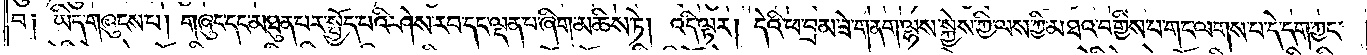བ༑ ཡིད་གཞུངས་པ། གཞུང་དང་མཐུན་པར་སྤྱོད་པའི་ཤེས་རབ་དང་ལྡན་པ་ཞིག་མཆིས་ཏེ། འདི་ལྟར། དེའི་ཕ་བྲམ་ཟེ་གནག་ལྷས་སྐྱེས་ཀྱི་ལས་ཀྱི་མཐའ་བགྱིས་པ་གང་ལགས་པ་དེ་དག་ཀྱང་
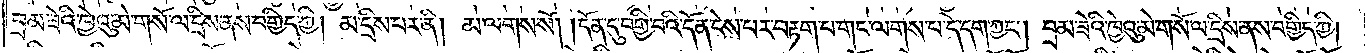བྲམ་ཟེའི་ཁྱེའུ་མེ་གསོ་ལ་དྲིས་ནས་བགྱིད་ཀྱི། མ་དྲིས་པར་ནི། མ་ལགས་སོ། །དོན་དུ་བགྱི་བའི་དོན་ངེས་པར་བརྟག་པ་གང་ལགས་པ་དེ་དག་ཀྱང༌། བྲམ་ཟེའི་ཁྱེའུ་མེ་གསོ་ལ་དྲིས་ནས་བགྱིད་ཀྱི།
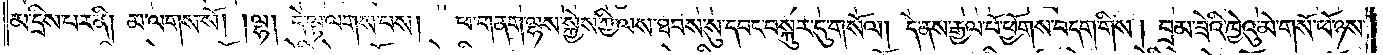མ་དྲིས་པར་ནི། མ་ལགས་སོ། །ལྷ། དེ་ལྟ་ལགས་པས།   ཕ་གནག་ལྷས་སྐྱེས་ཀྱི་ལས་ཐབས་སུ་དབང་བསྐུར་དུ་གསོལ། དེ་ནས་རྒྱལ་པོ་ཕྱོགས་བདག་གིས། བྲམ་ཟེའི་ཁྱེའུ་མེ་གསོ་ཕོ་ཉས་
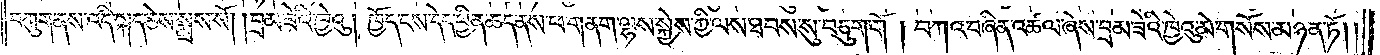བཀུག་ནས་འདི་སྐད་ཅེས་སྨྲས་སོ། །བྲམ་ཟེའི་ཁྱེའུ། ཁྱོད་ངས་དེད་ཕྱིན་ཆད་ནས་ཕ་གནག་ལྷས་སྐྱེས་ཀྱི་ལས་ཐབས་སུ་བཅུག་གོ །བཀའ་བཞིན་འཚལ་ཞེས་བྲམ་ཟེའི་ཁྱེའུ་མེ་གསོས་མཉན་ཏོ༎
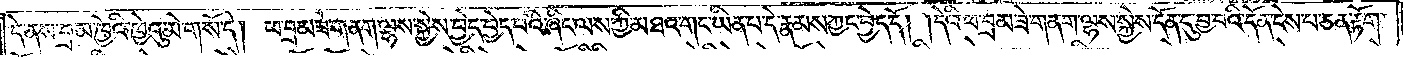དེ་ནས་བྲམ་ཁྱེའུ་ཁྱེའུ་མེ་གསོ་དེ། ཕ་བྲམ་ཟེ་གནག་ལྷས་སྐྱེས་བྱེད་བྱེད་པའི་ཞིང་ལས་ཀྱི་མཐའ་གང་ཡིན་པ་དེ་རྣམས་ཀྱང་བྱེད་དོ། །དེའི་ཕ་བྲམ་ཟེ་གནག་ལྷས་སྐྱེས་དོན་དུ་བྱ་བའི་དོན་ངེས་པ་ཅན་རྟོག་
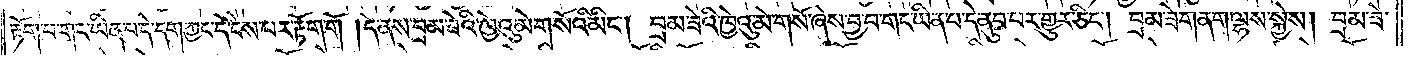རྟོག་པ་གང་ཡིན་པ་དེ་དག་ཀྱང་དེ་ངེས་པར་རྟོག་གོ །དེ་ནས་བྲམ་ཟེའི་ཁྱེའུ་མེ་གསོའི་མིང༌། བྲམ་ཟེའི་ཁྱེའུ་མེ་གསོ་ཞེས་བྱ་བ་གང་ཡིན་པ་དེ་ནུབ་པར་གྱུར་ཅིང༌། བྲམ་ཟེ་གནག་ལྷས་སྐྱེས། བྲམ་ཟེ་
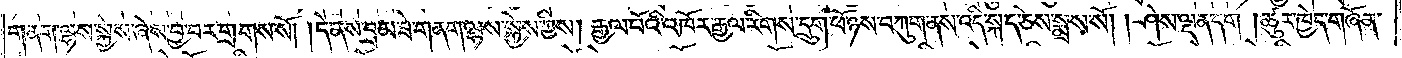གནག་ལྷས་སྐྱེས་ཞེས་བྱ་བར་གྲགས་སོ། །དེ་ནས་བྲམ་ཟེ་གནག་ལྷས་སྐྱེས་ཀྱིས། རྒྱལ་པོའི་འཁོར་རྒྱལ་རིགས་དྲུག་ཕོ་ཉས་བཀུག་ནས་འདི་སྐད་ཅེས་སྨྲས་སོ། །ཤེས་ལྡན་དག །ཚུར་ཁྱེད་གཞོན་
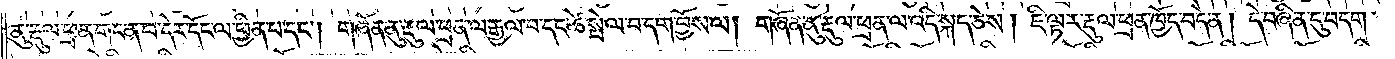ནུ་རྡུལ་ཕྲན་གང་ན་བ་དེར་དོང་ལ་ཕྱིན་པ་དང༌། གཞོན་ནུ་རྡུལ་ཕྲན་ལ་རྒྱལ་བ་དང་ཚེ་སྤེལ་བ་དག་བྱོས་ལ། གཞོན་ནུ་རྡུལ་ཕྲན་ལ་འདི་སྐད་ཅེས། ཇི་ལྟར་རྡུལ་ཕྲན་ཁྱོད་བདེ་ན། དེ་བཞིན་དུ་བདག་
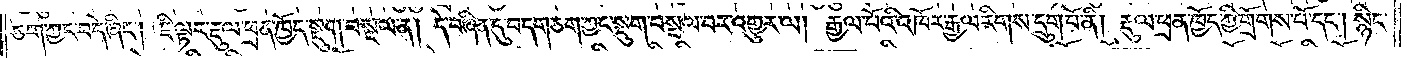ཅག་ཀྱང་བདེ་ཞིང༌། ཇི་ལྟར་རྡུལ་ཕྲན་ཁྱོད་སྡུག་བསྔལ་ན། དེ་བཞིན་དུ་བདག་ཅག་ཀྱང་སྡུག་བསྔལ་བར་འགྱུར་ལ། རྒྱལ་པོའི་འཁོར་རྒྱལ་རིགས་དྲུག་པོ་ནི། རྡུལ་ཕྲན་ཁྱོད་ཀྱི་གྲོགས་པོ་དང༌། སྙིང་
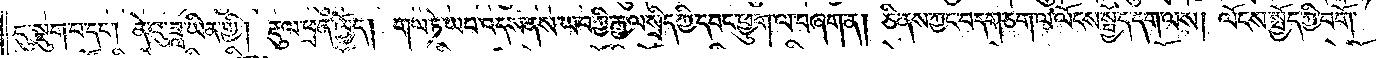དུ་སྡུག་པ་དང༌། ནེའུ་ཟླ་ཡིན་གྱི། རྡུལ་ཕྲན་ཁྱོད། གལ་ཏེ་ཡབ་འདས་ནས་ཡབ་ཀྱི་རྒྱལ་སྲིད་ཀྱི་དབང་ཕྱུག་ལ་བཞག་ན། ཅི་ནས་ཀྱང་བདག་ཅག་ལ་ལོངས་སྤྱོད་དག་ལས། ལོངས་སྤྱོད་ཀྱི་བགོ་
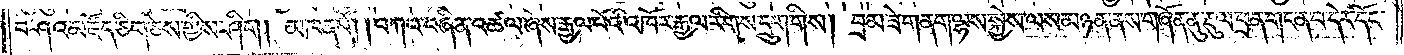བཤའ་མཛོད་ཅིག་ཅེས་གྱིས་ཤིག། མཁན་པོ་།བཀའ་བཞིན་འཚལ་ཞེས་རྒྱལ་པོའི་འཁོར་རྒྱལ་རིགས་དྲུག་གིས། བྲམ་ཟེ་གནག་ལྷས་སྐྱེས་ལས་མཉན་ནས་གཞོན་ནུ་རྡུལ་ཕྲན་གང་ན་བ་དེར་དོང་
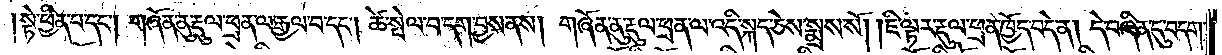སྟེ་ཕྱིན་པ་དང༌། གཞོན་ནུ་རྡུལ་ཕྲན་ལ་རྒྱལ་བ་དང༌། ཚེ་སྤེལ་བ་དག་བྱས་ནས། གཞོན་ནུ་རྡུལ་ཕྲན་ལ་འདི་སྐད་ཅེས་སྨྲས་སོ། །ཇི་ལྟར་རྡུལ་ཕྲན་ཁྱོད་བདེ་ན། དེ་བཞིན་དུ་བདག་
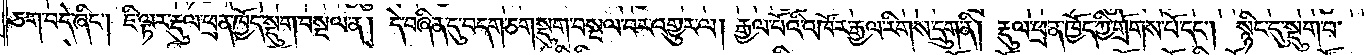ཅག་བདེ་ཞིང༌། ཇི་ལྟར་རྡུལ་ཕྲན་ཁྱོད་སྡུག་བསྔལ་ན། དེ་བཞིན་དུ་བདག་ཅག་སྡུག་བསྔལ་བར་འགྱུར་ལ། རྒྱལ་པོའི་འཁོར་རྒྱལ་རིགས་དྲུག་ནི། རྡུལ་ཕྲན་ཁྱོད་ཀྱི་གྲོགས་པོ་དང༌། སྙིང་དུ་སྡུག་པ་
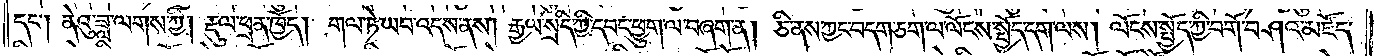དང༌། ནེའུ་ཟླ་ལགས་ཀྱི། རྡུལ་ཕྲན་ཁྱོད། གལ་ཏེ་ཡབ་འདས་ནས། རྒྱལ་སྲིད་ཀྱི་དབང་ཕྱུག་ལ་བཞག་ན། ཅི་ནས་ཀྱང་བདག་ཅག་ལ་ལོངས་སྤྱོད་དག་ལས། ལོངས་སྤྱོད་ཀྱི་བགོ་བཤའ་མཛོད་
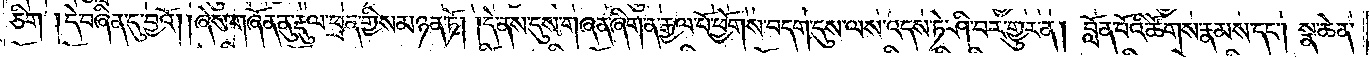ཅིག །དེ་བཞིན་དུ་བྱའོ། །ཞེས་གཞོན་ནུ་རྡུལ་ཕྲན་གྱིས་མཉན་ཏོ། །དེ་ནས་དུས་གཞན་ཞིག་ན་རྒྱལ་པོ་ཕྱོགས་བདག་དུས་ལས་འདས་ཏེ་ཤི་བར་གྱུར་ན། བློན་པོའི་ཚོགས་རྣམས་དང༌། སྣ་ཆེན་
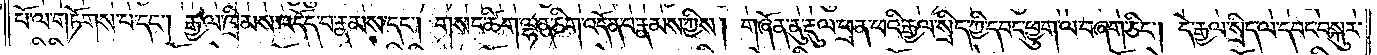པོ་ལ་གཏོགས་པ་དང༌། རྒྱལ་ཁྲིམས་འདོད་པ་རྣམས་དང༌། གསང་ཚིག་ལྷན་ཅིག་འདོན་པ་རྣམས་ཀྱིས། གཞོན་ནུ་རྡུལ་ཕྲན་ཕའི་རྒྱལ་སྲིད་ཀྱི་དབང་ཕྱུག་ལ་བཞག་ཅིང༌། དེ་རྒྱལ་སྲིད་ལ་དབང་བསྐུར་
